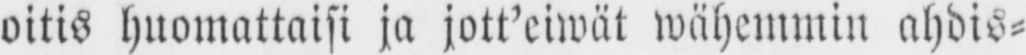oitis huomattaisi ja jott’eiwät wähemmin ahdis-
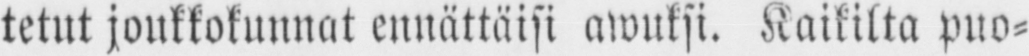tetut joukkokunnat ennättäisi awuksi. Kaikilta puo-
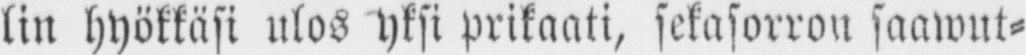lin hyökkäsi ulos yksi prikaati, sekasorron saawut-
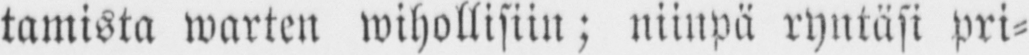tamista warten wihollisiin; niinpä ryntäsi pri-
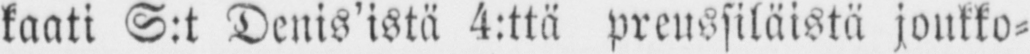kaati S:t Denis’istä 4:ttä preussiläistä joukko-
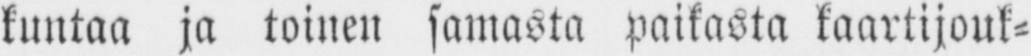kuntaa ja toinen samasta paikasta kaartijouk-
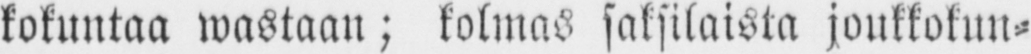kokuntaa wastaan; kolmas saksilaista joukkokun-
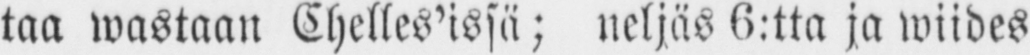taa wastaan Chelles’isjä; neljäs 6:tta ja wiides
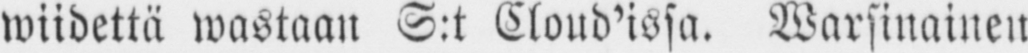wiidettä wastaan S:t Cloud’issa. Warsinainen
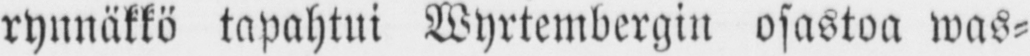rynnäkkö tapahtui Wyrtembergin osastoa was-
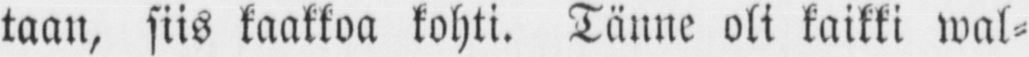taan, siis kaakkoa kohti. Tänne oli kaikki wal-
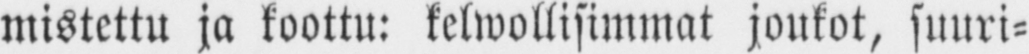mistettu ja koottu: kelwollisimmat joukot, suuri-
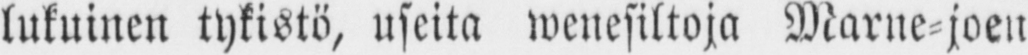lukuinen tykistö, useita wenesiltoja Marne-joen
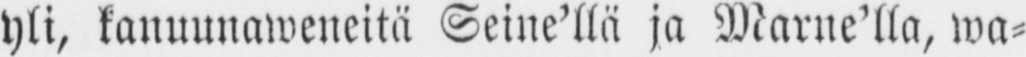yli, kanuunaweneitä Seine’llä ja Marne’lla, wa-
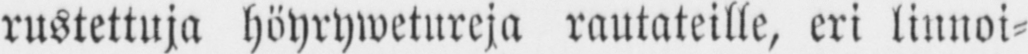rustettuja höyrywetureja rautateille, eri linnoi-
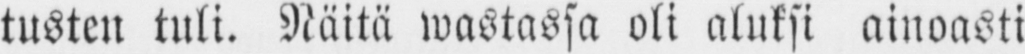tusten tuli. Näitä wastassa oli aluksi ainoasti
